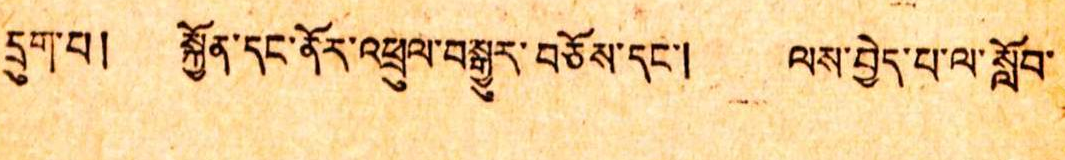དྲུག་པ། སྐྱོན་དང་ནོར་འཕྲུལ་བསྒྱུར་བཅོས་དང་། ལས་བྱེད་པ་ལ་སློབ་
